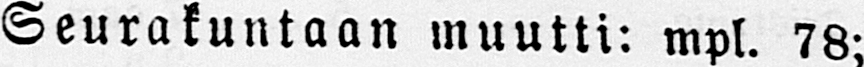Seurakuntaan muutti: mpl. 78;
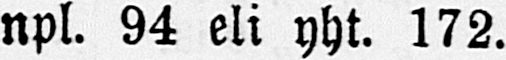npl. 94 eli yht. 172.
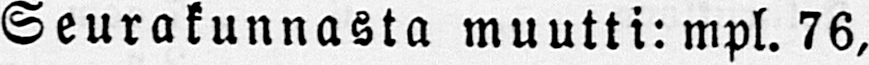Seurakunnasta muutti: mpl. 76,
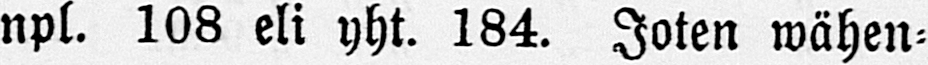npl. 108 eli yht. 184. Joten wähen-
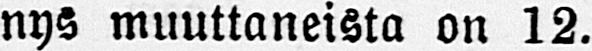nys muuttaneista on 12.
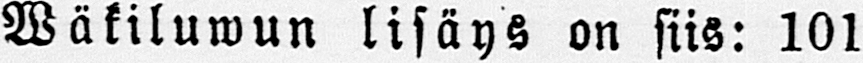Wäkiluwun lisäys on siis: 101
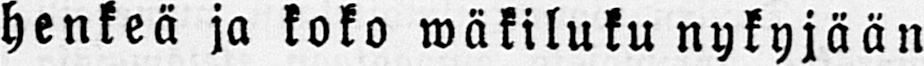henkeä ja koko wäkiluku nykyjään
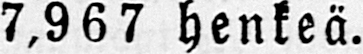7,967 henkeä.
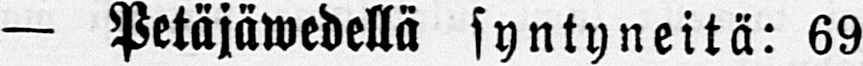— Petäjäwedellä syntyneitä: 69
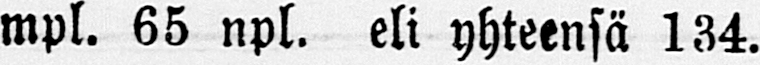mpl. 65 npl. eli yhteensä 134.
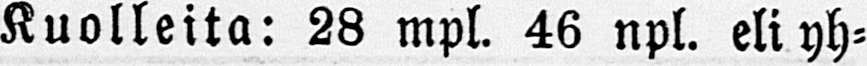Kuolleita: 28 mpl. 46 npl. eli yh-
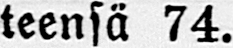teensä 74.
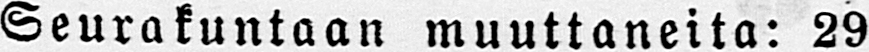Seurakuntaan muuttaneita: 29
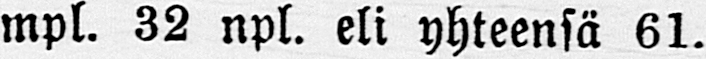mpl. 32 npl. eli yhteensä 61.
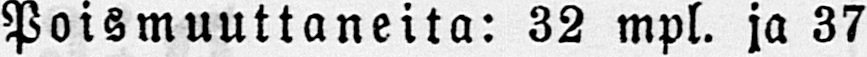Poismuuttaneita: 32 mpl. ja 37
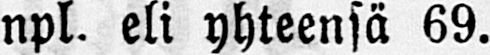npl. eli yhteensä 69.
